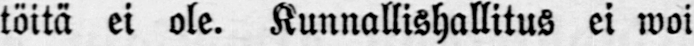töitä ei ole. Kunnallishallitus ei woi
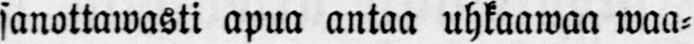sanottawasti apua antaa uhkaawaa waa-
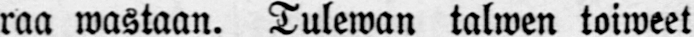raa wastaan. Tulewan talwen toiweet
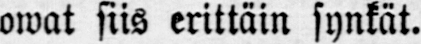owat siis erittäin synkät.
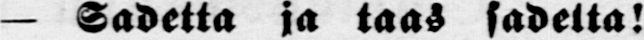— Sadetta ja taas sadelta!
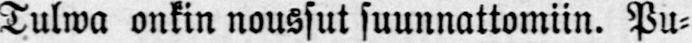Tulwa onkin noussut suunnattomiin. Pu-
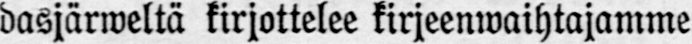dasjärweltä kirjottelee kirjeenwaihtajamme
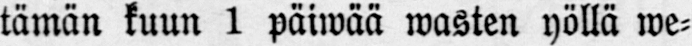tämän kuun 1 päiwää wasten yöllä we-
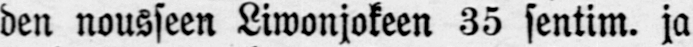den nousseen Liwonjokeen 35 sentim. ja
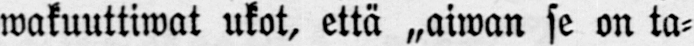wakuuttiwat ukot, että „aiwan se on ta-
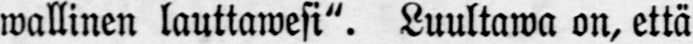wallinen lauttawesi". Luultawa on, että
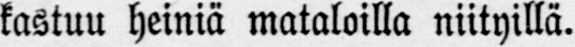kastuu heiniä mataloilla niityillä.
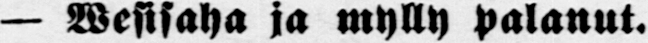— Wesisaha ja mylly palanut.
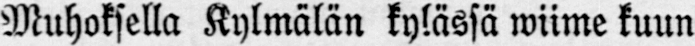Muhoksella Kylmälän kylässä wiime kuun
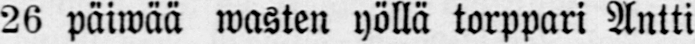26 päiwää wasten yöllä torppari Antti
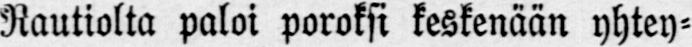Rautiolta paloi poroksi keskenään yhtey-
